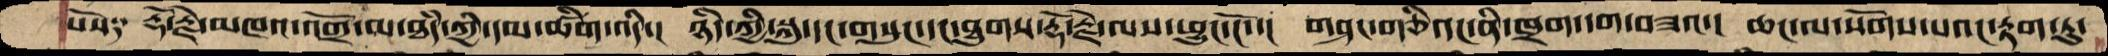པོས༑   རྡོ་རྗེ་མཁའ་འགྲོ་མ་ཐཾད་ཀྱི་དམ་ཚིག་འདི་།  ཉིད་ཀྱི་སྐུ་དང་གསུང་དང་ཐུགས་རྡོ་རྗེ་ལས་ཕྱུང་ངོ་་།  གཤང་གཅི་དང་ནི་ཁྲག་དག་བཟའ་།  ཆང་ལ་སོགས་པའང་རྟག་ཏུ་
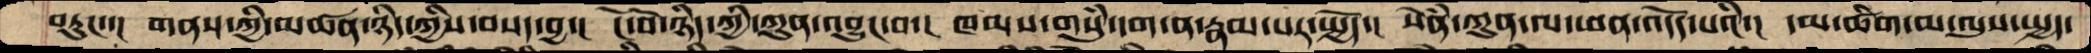བཏུང་་།  གནས་ཀྱི་མཚན་ཉིད་ཀྱིས་བསད་བྱ་།  ངོ་བོ་ཉིད་ཀྱི་ཀུན་འབྱུང་བ་།  ཁམས་གསུཾ་དག་ན་རྣམ་པར་སྤྱོད་།  སེནཾ་ཀུན་ལ་ཕན་འདོད་པའི་།  དམ་ཚིག་མ་ལུས་སྤྱད་
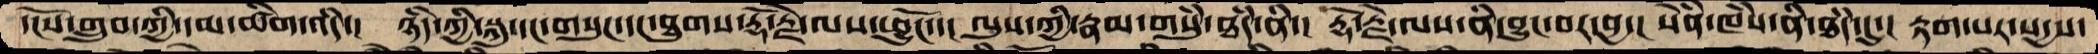དངོས་གྲུབ་ཀྱི་དམ་ཚིག་འདི་།  ཉིད་ཀྱི་སྐུ་དང་གསུང་དང་ཐུགས་རྡོ་རྗེ་ལས་ཕྱུངོ་་།  ལུས་ཀྱི་རྣམ་གསུཾ་ཐཾད་ནི་།  རྡོ་རྗེ་ལས་ནི་བྱུང་བར་བྱ་།  སེཾན་ཁཾས་ནི་ཐཾད་དུ་།  རྟག་པར་སདྱས་
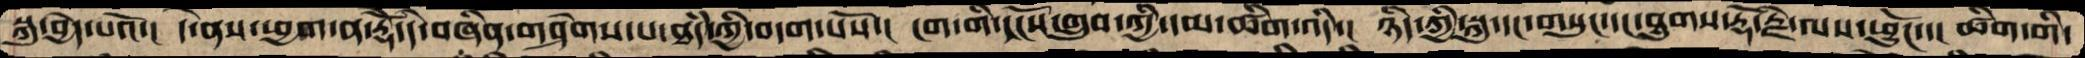སྐུ་བྱེད་པའོ་།  དེ་ནས་ཕྱག་ན་རྡོེེ་དེ་བཞིན་གཤེགས་པ་ཐཾད་ཀྱི་བདག་པོས་།  ངག་གི་དངོས་གྲུབ་ཀྱི་དམ་ཚིག་འདི་།  ཉིད་ཀྱི་སྐུ་དང་གསུང་དང་ཐུགས་རྡོ་རྗེ་ལས་ཕྱུངོ་་།  ཚིག་གི་
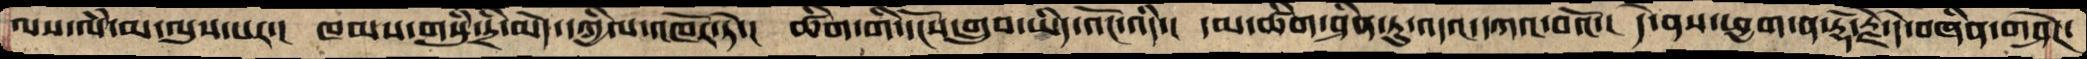ལས་ལཾ་མ་ལུས་པར་།  ཁམས་གསུཾ་དྲི་མེད་དཀྱིལ་འཁོར་ཏེ་།  ཚིག་གི་དངོས་གྲུབ་ཡིད་འོང་འདི་།   དམ་ཚིག་ཤིན་ཏུ་འདའ་དཀའ་བའོ་།  དེ་ནས་ཕྱག་ན་རྡོ་རྗེ་དེ་བཞིན་གཤེཌ་
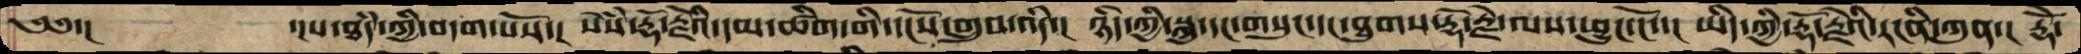༄༅་།      ་།ས་ཐཾད་ཀྱི་བདག་པོས་།  སེཾས་རྡོ་རྗེའི་དམ་ཚིག་གི་དངོས་གྲུབ་འདི་།  ཉིད་ཀྱི་སྐུ་དང་གསུང་དང་ཐུགས་རྡོ་རྗེ་ལས་ཕྱུངོ་་།  ཡདི་ཀྱི་རྡོ་རྗེའི་རངིན་ཀུན་།  རྡོེ་
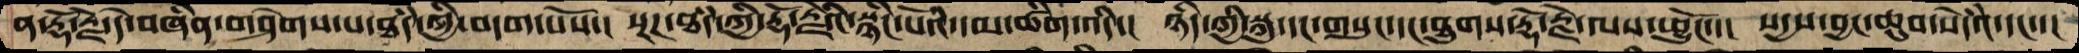ན་རྡོ་རྗེ་དེ་བཞིན་གཤེགས་པ་ཐཾད་ཀྱི་བདག་པོས་།  སྔཌ་ཐཾད་ཀྱི་རྡོ་རྗེའི་སྙིང་པོའི་དམ་ཚིག་འདི་།  ཉིད་ཀྱི་སྐུ་དང་གསུང་དང་ཐུགས་རྡོ་རྗེ་ལས་ཕྱུངོ་་།  སདྱས་བྱང་ཆུབ་སེདའཾ་དང་་།
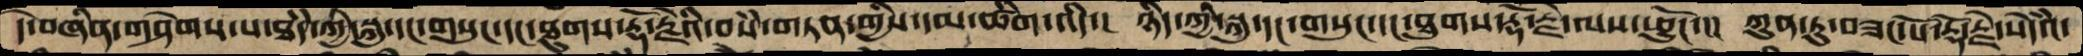དེ་བཞིན་གཤེགས་པ་ཐཾད་ཀྱི་སྐུ་དང་གསུང་དང་ཐུགས་རྡོ་རྗེའི་བསཾ་གཏན་གྱིས་དམ་ཚིག་འདི་།  ཉིད་ཀྱི་སྐུ་དང་གསུང་དང་ཐུགས་རྡོ་རྗེ་ལས་ཕྱུངོ་་།  ཀུན་ཏུ་བཟང་པོ་རྡོ་རྗེ་སེདའཾ་
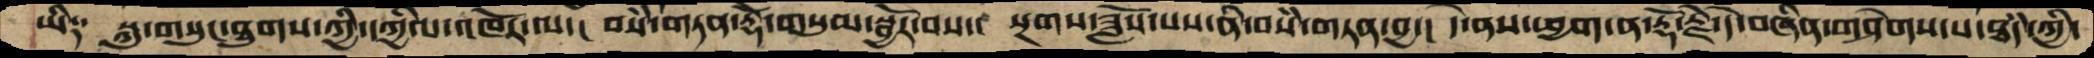ཡི༑  སྐུ་གསུང་ཐུགས་ཀྱི་དཀྱིལ་འཁོར་ལ་།  བསཾ་གཏན་རྡོེ་གསུམ་སྦྱོར་བས་།  སྔགས་ཟློས་པས་ནི་བསཾ་གཏན་བྱ་།  དེ་ནས་ཕྱག་ན་རྡོ་རྗེ་དེ་བཞིན་གཤེགས་པ་ཐཾད་ཀྱི་
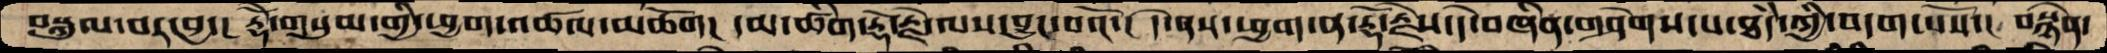བསྐུལ་བར་བྱ་།  རྡོེ་གསུམ་གྱི་ཕྱག་འཚལ་མཆོག།  དམ་ཚིག་རྡོ་རྗེ་ལས་བྱུང་བའོ་།  དེ་ནས་ཕྱག་ན་རྡོ་རྗེས་དེ་བཞིན་གཤེགས་པ་ཐཾད་ཀྱི་བདག་པོས་།  བསྙེན་
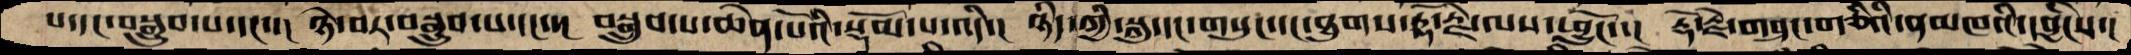པ་དང་བསྒྲུབ་པ་དང་་།  ཉེ་བར་བསྒྲུབ་པ་དང་་།  བསྒྲུབ་པ་ཆེན་པོའི་སྡོམ་པ་འདི་།  ཉིད་ཀྱི་སྐུ་དང་གསུང་དང་ཐུགས་རྡོ་རྗེ་ལས་ཕྱུངོ་་།  རྡོ་རྗེ་གཤང་གཅིའི་ནམཁའི་དབྱིངས་།
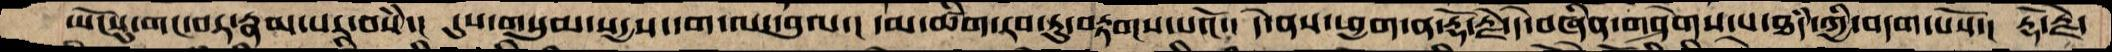ཡོངསུ་གང་བར་རྣམ་པར་བསཾ་།  དུས་གསུམ་སདྱས་དག་ལ་དབུལ་།  དམ་ཚིག་རབ་ཏུ་བརྟགས་པའོ་།  དེ་ནས་ཕྱག་ན་རྡོ་རྗེ་དེ་བཞིན་གཤེགས་པ་ཐདཾ་ཀྱི་བདག་པོས་།  རྡོ་རྗེ་
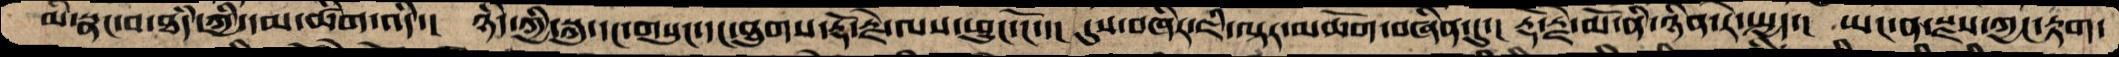མི་སྣང་བ་ཐདཾ་ཀྱི་དམ་ཚིག་འདི་།  ཉིད་ཀྱི་སྐུ་དང་གསུང་དང་ཐུགས་རྡོ་རྗེ་ལས་ཕྱུང་ངོ་་།  དུས་བཞིར་ཇི་ལྟར་མཆོག་བཞིན་དུ་།  རྡོ་རྗེ་མོ་ནི་ཉིན་རེ་སྤྱད་།  ཡང་ན་སྫས་ཀྱང་རྟག་
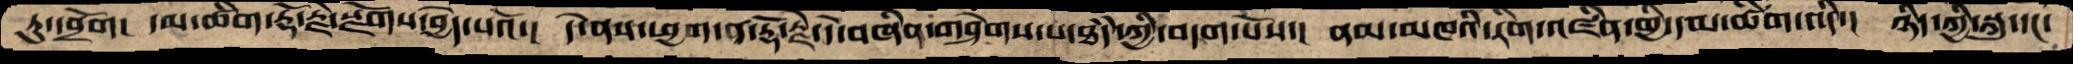ཏུ་བྲོག།  དམ་ཚིག་རྡོ་རྗེ་སྫོགས་བྱེད་པའོ་།  དེ་ནས་ཕྱག་ན་རྡོ་རྗེ་དེ་བཞིན་གཤེགས་པ་ཐདཾ་ཀྱི་བདག་པོས་།  ནམ་མཁའི་རིག་འཛིན་གྱི་དམ་ཚིག་འདི་།   ཉིད་ཀྱི་སྐུ་དང་
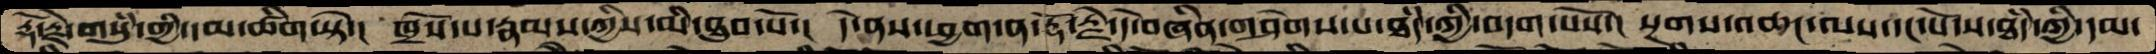རྡོ་རྗེ་གསུཾ་གྱི་དམ་ཚིག་སྟེ་།  ཁྲོས་པ་རྣམས་ཀྱིས་མི་ཐུབ་པོ་།  དེ་ནས་ཕྱག་ན་རྡོ་རྗེ་དེ་བཞིན་གཤེགས་པ་ཐཾད་ཀྱི་བདག་པོས་།  སྔགས་འཆང་ལས་དང་པོ་ས་ཐཾད་ཀྱི་དམ་
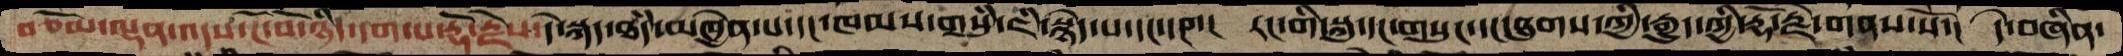བཅོམ་ལྡན་འདས་ངོ་བོ་ཉིད་དག་པ་རྡོ་རྗེས་དེ་སྐད་ཐཾད་མཁྱེན་པ་དང་ཁམས་གསུཾ་ཇི་སྙེད་པ་དང་་།  རང་གི་སྐུ་དང་གསུང་དང་ཐུགས་ཀྱི་རྒྱུད་ཀྱི་རྡོ་རྗེ་གནས་སོ་།  དེ་བཞིན་
